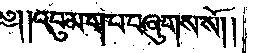༄༅། །འབུམ་ག་པ་བཞུགས་སོ༎
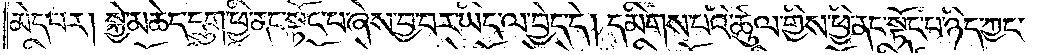མེད་པར། སྐྱེ་མཆེད་དྲུག་ཕྱི་ནང་སྟོང་པ་ཞེས་བྱ་བར་ཡིད་ལ་བྱེད་དེ། དམིགས་པའི་ཚུལ་གྱིས་ཕྱི་ནང་སྟོང་པ་ཉིད་ཀྱང་
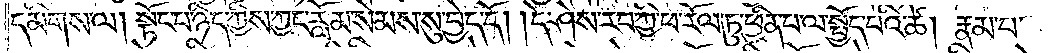དམིགས་ལ། སྟོང་པ་ཉིད་ཀྱིས་ཀྱང་རློམ་སེམས་སུ་བྱེད་དོ། །དེ་ཤེས་རབ་ཀྱི་ཕ་རོལ་ཏུ་ཕྱིན་པ་ལ་སྤྱོད་པའི་ཚེ། རྣམ་པ་
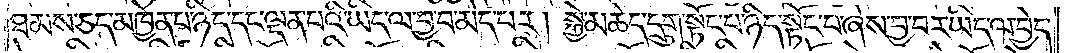ཐམས་ཅད་མཁྱེན་པ་ཉིད་དང་ལྡན་པའི་ཡིད་ལ་བྱ་བ་མེད་པར། སྐྱེ་མཆེད་དྲུག་སྟོང་པ་ཉིད་སྟོང་པ་ཞེས་བྱ་བར་ཡིད་ལ་བྱེད་
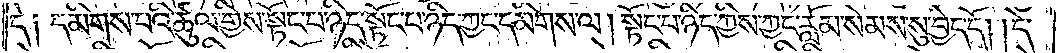དེ། དམིགས་པའི་ཚུལ་གྱིས་སྟོང་པ་ཉིད་སྟོང་པ་ཉིད་ཀྱང་དམིགས་ལ། སྟོང་པ་ཉིད་ཀྱིས་ཀྱང་རློམ་སེམས་སུ་བྱེད་དོ། །དེ་
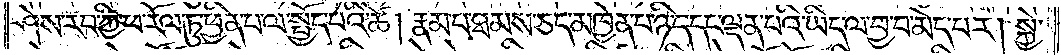ཤེས་རབ་ཀྱི་ཕ་རོལ་ཏུ་ཕྱིན་པ་ལ་སྤྱོད་པའི་ཚེ། རྣམ་པ་ཐམས་ཅད་མཁྱེན་པ་ཉིད་དང་ལྡན་པའི་ཡིད་ལ་བྱ་བ་མེད་པར། སྐྱེ་
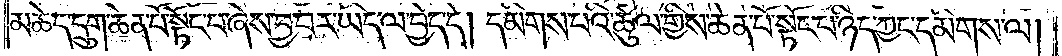མཆེད་དྲུག་ཆེན་པོ་སྟོང་པ་ཞེས་བྱ་བར་ཡིད་ལ་བྱེད་དེ། དམིགས་པའི་ཚུལ་གྱིས་ཆེན་པོ་སྟོང་པ་ཉིད་ཀྱང་དམིགས་ལ།
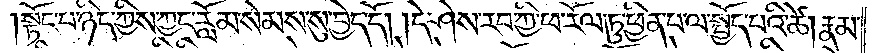སྟོང་པ་ཉིད་ཀྱིས་ཀྱང་རློམ་སེམས་སུ་བྱེད་དོ། །དེ་ཤེས་རབ་ཀྱི་ཕ་རོལ་ཏུ་ཕྱིན་པ་ལ་སྤྱོད་པའི་ཚེ། རྣམ་
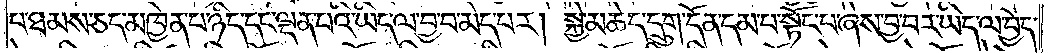པ་ཐམས་ཅད་མཁྱེན་པ་ཉིད་དང་ལྡན་པའི་ཡིད་ལ་བྱ་བ་མེད་པར། སྐྱེ་མཆེད་དྲུག་དོན་དམ་པ་སྟོང་པ་ཞེས་བྱ་བར་ཡིད་ལ་བྱེད་
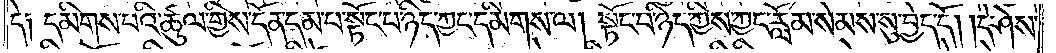དེ། དམིགས་པའི་ཚུལ་གྱིས་དོན་དམ་པ་སྟོང་པ་ཉིད་ཀྱང་དམིགས་ལ། སྟོང་པ་ཉིད་ཀྱིས་ཀྱང་རློམ་སེམས་སུ་བྱེད་དོ། །དེ་ཤེས་
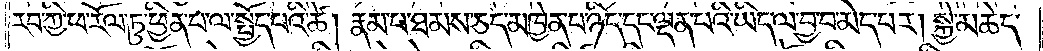རབ་ཀྱི་ཕ་རོལ་ཏུ་ཕྱིན་པ་ལ་སྤྱོད་པའི་ཚེ། རྣམ་པ་ཐམས་ཅད་མཁྱེན་པ་ཉིད་དང་ལྡན་པའི་ཡིད་ལ་བྱ་བ་མེད་པར། སྐྱེ་མཆེད་
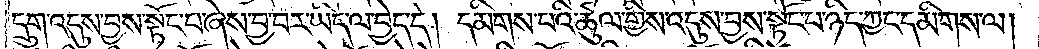དྲུག་འདུས་བྱས་སྟོང་པ་ཞེས་བྱ་བར་ཡིད་ལ་བྱེད་དེ། དམིགས་པའི་ཚུལ་གྱིས་འདུས་བྱས་སྟོང་པ་ཉིད་ཀྱང་དམིགས་ལ།
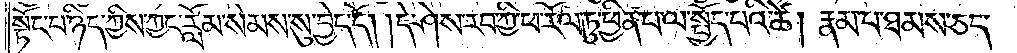སྟོང་པ་ཉིད་ཀྱིས་ཀྱང་རློམ་སེམས་སུ་བྱེད་དོ། །དེ་ཤེས་རབ་ཀྱི་ཕ་རོལ་ཏུ་ཕྱིན་པ་ལ་སྤྱོད་པའི་ཚེ། རྣམ་པ་ཐམས་ཅད་
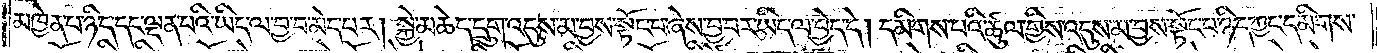མཁྱེན་པ་ཉིད་དང་ལྡན་པའི་ཡིད་ལ་བྱ་བ་མེད་པར། སྐྱེ་མཆེད་དྲུག་འདུས་མ་བྱས་སྟོང་པ་ཞེས་བྱ་བར་ཡིད་ལ་བྱེད་དེ། དམིགས་པའི་ཚུལ་གྱིས་འདུས་མ་བྱས་སྟོང་པ་ཉིད་ཀྱང་དམིགས་
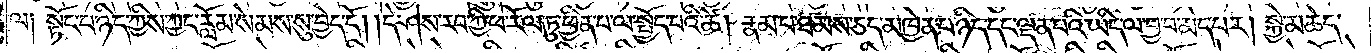ལ། སྟོང་པ་ཉིད་ཀྱིས་ཀྱང་རློམ་སེམས་སུ་བྱེད་དོ། །དེ་ཤེས་རབ་ཀྱི་ཕ་རོལ་ཏུ་ཕྱིན་པ་ལ་སྤྱོད་པའི་ཚེ། རྣམ་པ་ཐམས་ཅད་མཁྱེན་པ་ཉིད་དང་ལྡན་པའི་ཡིད་ལ་བྱ་བ་མེད་པར། སྐྱེ་མཆེད་
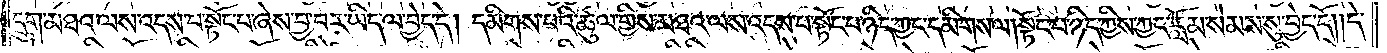དྲུག་མཐའ་ལས་འདས་པ་སྟོང་པ་ཞེས་བྱ་བར་ཡིད་ལ་བྱེད་དེ། དམིགས་པའི་ཚུལ་གྱིས་མཐའ་ལས་འདས་པ་སྟོང་པ་ཉིད་ཀྱང་དམིགས་ལ། སྟོང་པ་ཉིད་ཀྱིས་ཀྱང་རློམ་སེམས་སུ་བྱེད་དོ། །དེ་
